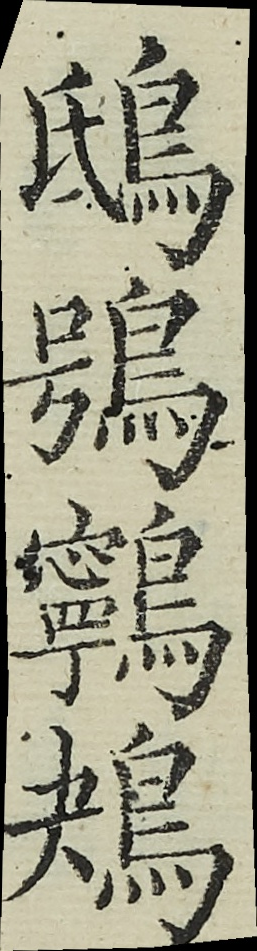鴟鴞鸋鴂
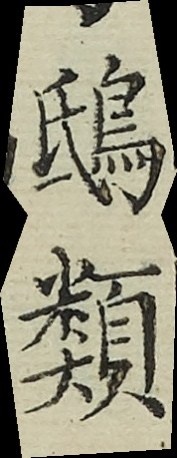鴟類
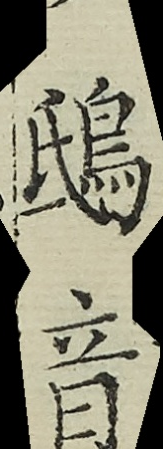鴟音
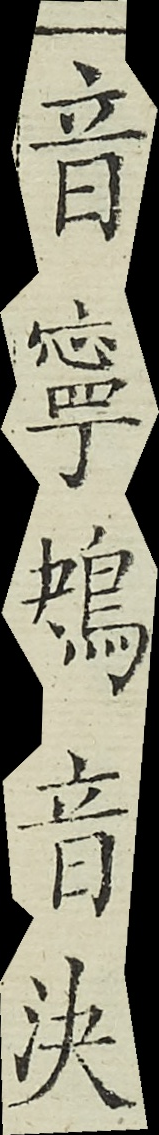音寧鴂音決
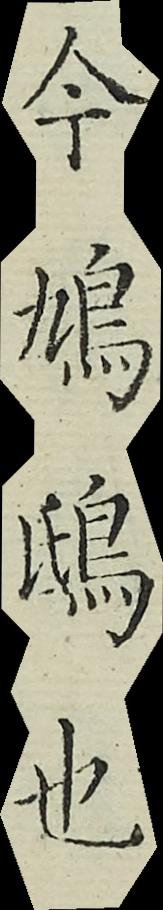今鳩鴟也
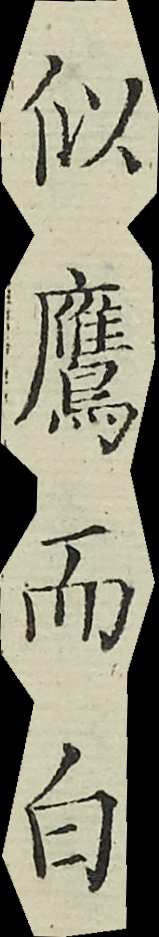似鷹而白
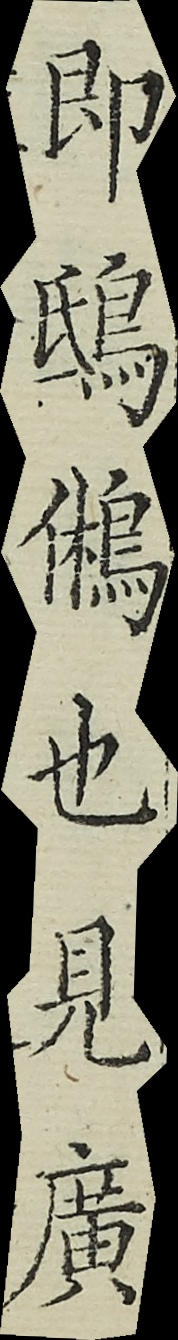即鴟鵂也見廣
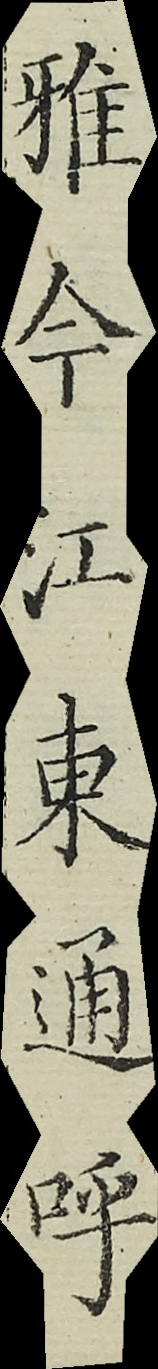雅今江東通呼
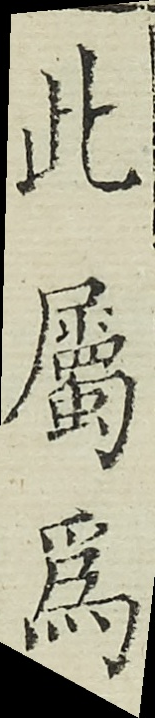此屬為
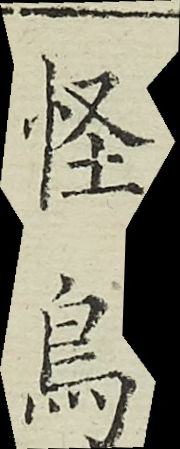怪鳥
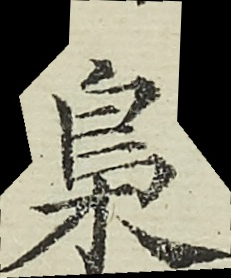梟
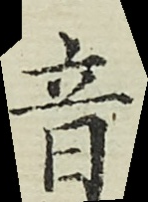音
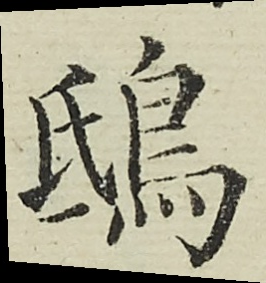鴟
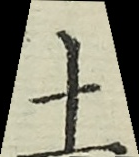土
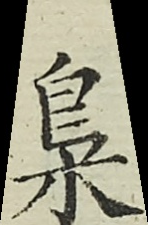梟
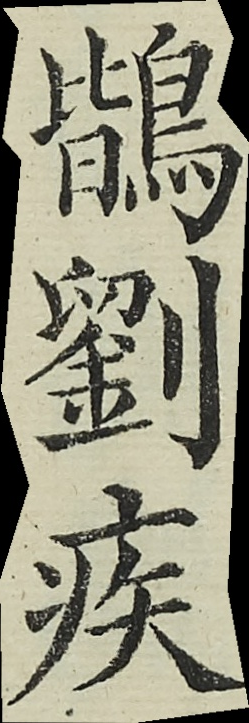鶛劉疾
